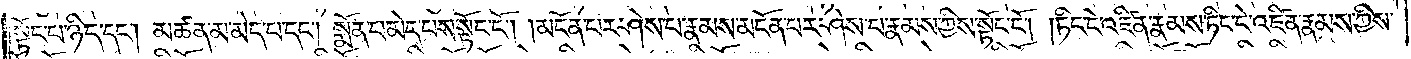སྟོང་པ་ཉིད་དང༌། མཚན་མ་མེད་པ་དང༌། སྨོན་པ་མེད་པས་སྟོང་ངོ༌། །མངོན་པར་ཤེས་པ་རྣམས་མངོན་པར་ཤེས་པ་རྣམས་ཀྱིས་སྟོང་ངོ༌། །ཏིང་ངེ་འཛིན་རྣམས་ཏིང་ངེ་འཛིན་རྣམས་ཀྱིས་
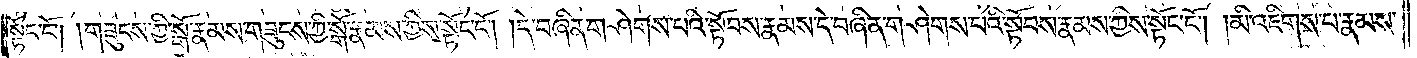སྟོང་ངོ༌། །གཟུངས་ཀྱི་སྒོ་རྣམས་གཟུངས་ཀྱི་སྒོ་རྣམས་ཀྱིས་སྟོང་ངོ༌། །དེ་བཞིན་གཤེགས་པའི་སྟོབས་རྣམས་དེ་བཞིན་གཤེགས་པའི་སྟོབས་རྣམས་ཀྱིས་སྟོང་ངོ༌། །མི་འཇིགས་པ་རྣམས་
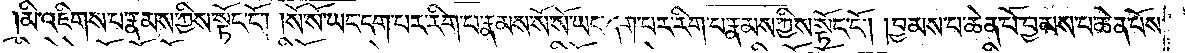མི་འཇིགས་པ་རྣམས་ཀྱིས་སྟོང་ངོ༌། །སོ་སོ་ཡང་དག་པར་རིག་པ་རྣམས་སོ་སོ་ཡང་དག་པར་རིག་པ་རྣམས་ཀྱིས་སྟོང་ངོ༌། །བྱམས་པ་ཆེན་པོ་བྱམས་པ་ཆེན་པོས་
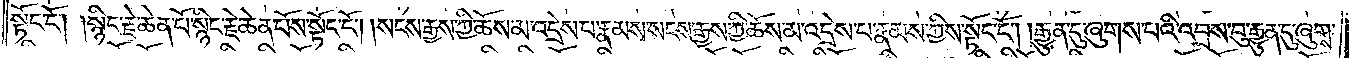སྟོང་ངོ༌། །སྙིང་རྗེ་ཆེན་པོ་སྙིང་རྗེ་ཆེན་པོས་སྟོང་ངོ༌། །སངས་རྒྱས་ཀྱི་ཆོས་མ་འདྲེས་པ་རྣམས་སངས་རྒྱས་ཀྱི་ཆོས་མ་འདྲེས་པ་རྣམས་ཀྱིས་སྟོང་ངོ༌། །རྒྱུན་དུ་ཞུགས་པའི་འབྲས་བུ་རྒྱུན་དུ་ཞུགས་
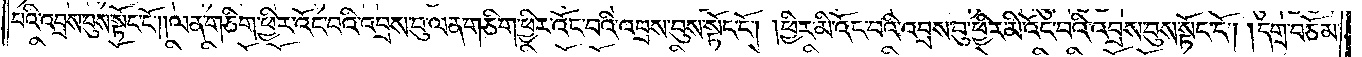པའི་འབྲས་བུས་སྟོང་ངོ༌། །ལན་གཅིག་ཕྱིར་འོང་བའི་འབྲས་བུ་ལན་གཅིག་ཕྱིར་འོང་བའི་འབྲས་བུས་སྟོང་ངོ༌། །ཕྱིར་མི་འོང་བའི་འབྲས་བུ་ཕྱིར་མི་འོང་བའི་འབྲས་བུས་སྟོང་ངོ༌། །དགྲ་བཅོམ་
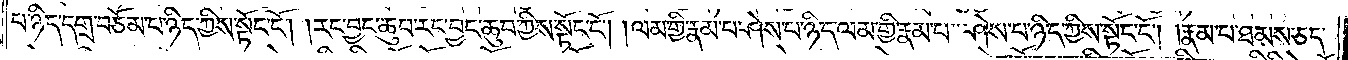པ་ཉིད་དགྲ་བཅོམ་པ་ཉིད་ཀྱིས་སྟོང་ངོ༌། །རང་བྱང་ཆུབ་རང་བྱང་ཆུབ་ཀྱིས་སྟོང་ངོ༌། །ལམ་གྱི་རྣམ་པར་ཤེས་པ་ཉིད་ལམ་གྱི་རྣམ་པ་ཤེས་པ་ཉིད་ཀྱིས་སྟོང་ངོ༌། །རྣམ་པ་ཐམས་ཅད་
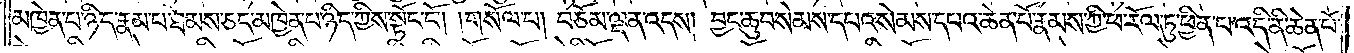མཁྱེན་པ་ཉིད་རྣམ་པ་ཐམས་ཅད་མཁྱེན་པ་ཉིད་ཀྱིས་སྟོང་ངོ༌། །གསོལ་པ། བཅོམ་ལྡན་འདས། བྱང་ཆུབ་སེམས་དཔའ་སེམས་དཔའ་ཆེན་པོ་རྣམས་ཀྱི་ཕ་རོལ་ཏུ་ཕྱིན་པ་འདི་ནི་ཆེན་པོ་
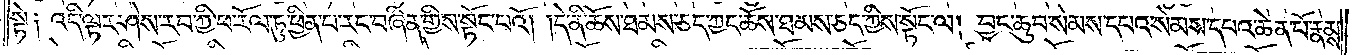སྟེ༑ འདི་ལྟར་ཤེས་རབ་ཀྱི་ཕ་རོལ་ཏུ་ཕྱིན་པ་རང་བཞིན་གྱིས་སྟོང་པའོ། །དེ་ནི་ཆོས་ཐམས་ཅད་ཀྱང་ཆོས་ཐམས་ཅད་ཀྱིས་སྟོང་ལ། བྱང་ཆུབ་སེམས་དཔའ་སེམས་དཔའ་ཆེན་པོ་རྣམས་
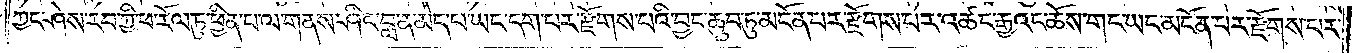ཀྱང་ཤེས་རབ་ཀྱི་ཕ་རོལ་ཏུ་ཕྱིན་པ་ལ་གནས་ཤིང་བླ་ན་མེད་པ་ཡང་དག་པར་རྫོགས་པའི་བྱང་ཆུབ་ཏུ་མངོན་པར་རྫོགས་པར་འཚང་རྒྱའང་ཆོས་གང་ཡང་མངོན་པར་རྫོགས་པར་
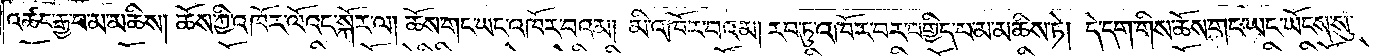འཚང་རྒྱ་བ་མ་མཆིས། ཆོས་ཀྱི་འཁོར་ལོའང་སྐོར་ལ། ཆོས་གང་ཡང་འཁོར་བའམ། མི་འཁོར་བའམ། རབ་ཏུ་འཁོར་བར་བགྱིད་པ་མ་མཆིས་ཏེ། དེ་དག་གིས་ཆོས་གང་ཡང་ཡོངས་སུ་
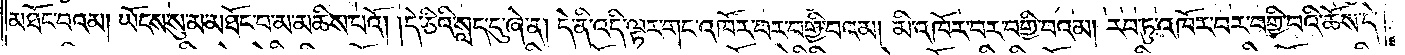མཐོང་བའམ། ཡོངས་སུ་མ་མཐོང་བ་མ་མཆིས་པའོ། །དེ་ཅིའི་སླད་དུ་ཞེ་ན། དེ་ནི་འདི་ལྟར་གང་འཁོར་བར་བགྱི་བའམ། མི་འཁོར་བར་བགྱི་བའམ། རབ་ཏུ་འཁོར་བར་བགྱི་བའི་ཆོས་དེ་
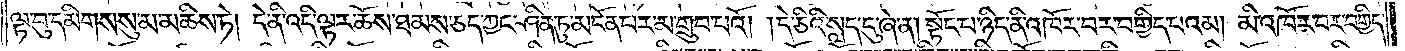ལྟ་བུ་དམིགས་སུ་མ་མཆིས་ཏེ། དེ་ནི་འདི་ལྟར་ཆོས་ཐམས་ཅད་ཀྱང་ཤིན་ཏུ་མངོན་པར་མ་གྲུབ་པའོ། །དེ་ཅིའི་སླད་དུ་ཞེ་ན། སྟོང་པ་ཉིད་ནི་འཁོར་བར་བགྱིད་པའམ། མི་འཁོར་བར་བགྱིད་
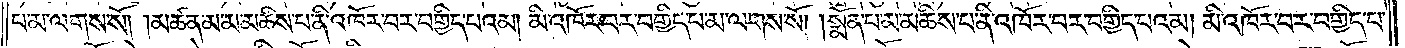པ་མ་ལགས་སོ། །མཚན་མ་མ་མཆིས་པ་ནི་འཁོར་བར་བགྱིད་པའམ། མི་འཁོར་བར་བགྱིད་པ་མ་ལགས་སོ། །སྨོན་པ་མ་མཆིས་པ་ནི་འཁོར་བར་བགྱིད་པའམ། མི་འཁོར་བར་བགྱིད་པ་
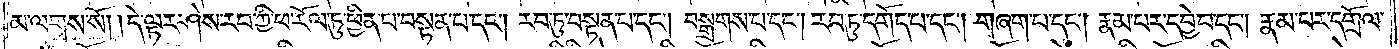མ་ལགས་སོ། །དེ་ལྟར་ཤེས་རབ་ཀྱི་ཕ་རོལ་ཏུ་ཕྱིན་པ་བསྟན་པ་དང༌། རབ་ཏུ་བསྟན་པ་དང༌། བསྒྲགས་པ་དང༌། རབ་ཏུ་འགོད་པ་དང༌། གཞག་པ་དང༌། རྣམ་པར་དབྱེ་བ་དང༌། རྣམ་པར་དགྲོལ་
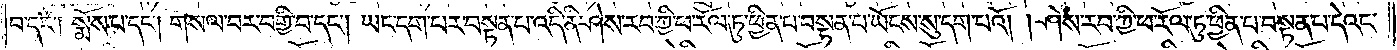བ་དང༌། སྨོས་པ་དང༌། གསལ་བར་བགྱི་བ་དང༌། ཡང་དག་པར་བསྟན་པ་འདི་ནི་ཤེས་རབ་ཀྱི་ཕ་རོལ་ཏུ་ཕྱིན་པ་བསྟན་པ་ཡོངས་སུ་དག་པའོ། །ཤེས་རབ་ཀྱི་ཕ་རོལ་ཏུ་ཕྱིན་པ་བསྟན་པ་དེའང་
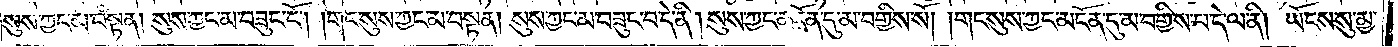སུས་ཀྱང་མ་བསྟན། སུས་ཀྱང་མ་བཟུང་ངོ༌། །གང་སུས་ཀྱང་མ་བསྟན། སུས་ཀྱང་མ་བཟུང་བ་དེ་ནི། སུས་ཀྱང་མངོན་དུ་མ་བགྱིས་སོ། །གང་སུས་ཀྱང་མངོན་དུ་མ་བགྱིས་པ་དེ་ལ་ནི། ཡོངས་སུ་མྱ་
